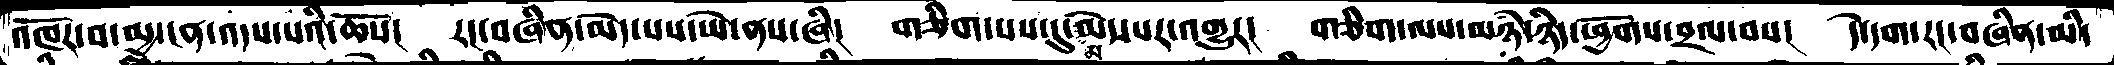འཁོར་བ་མྱ་ངན་འདས་པའི་ཆོས།  རང་བཞིན་མེད་པས་ཡེ་ནས་ཞི། གཅིག་པས་དུ་མ་མེད་པར་འགྱུར།  གཅིག་ལས་མཉཾ་ཉིད་ཕྱོགས་བྲལ་བས།  དེ་དག་རང་བཞིན་མི་
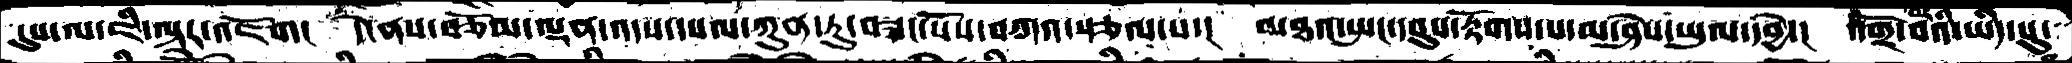དུས་ལ་ཇི་ལྟར་འཇོག།  དེ་ནས་བཅོམ་ལྡན་འདས་དཔལ་ཀུན་ཏུ་བཟང་པོས་བཀའ་སྩལ་པ་།  མཐའ་སྤང་དབུས་རྟོགས་པ་མ་ཤེས་ཡུལ་དབྱེ་།  འགྲོ་བའི་ཡིད་སུ་
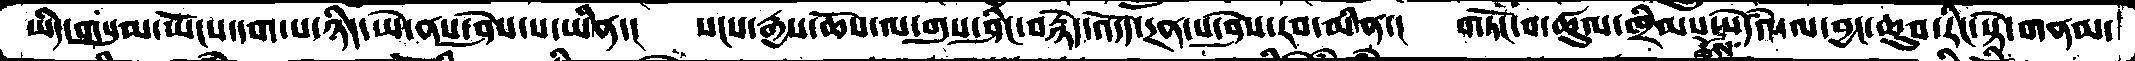ཡིད་གསུམ་ཡོངས་དག་པ་ཉིད་ཡེ་ནས་ཤེས་པ་ཡིན་།  སངས་རྒྱས་ཆོས་ལ་གུས་ཤིང་བརྙེད་འདོད་དྲན་པ་ཤེས་རབ་མིན་།  གཏོང་བ་ཚུལ་ཁྲིམས་སེདཾའ་ཆོས་ལ་བྱང་ཆུབ་རིང་སྟེ་གནམ་
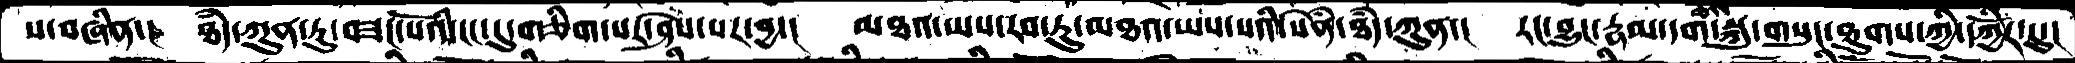ས་བཞིན་།  ཐཾད་ཀུན་ཏུ་བཟང་པོའི་ངང་དུ་གཅིག་པར་ཤེས་པར་བྱ་།  མཐའ་ཡས་རབ་ཏུ་མཐའ་ཡས་པའི་སེཾན་ཐཾད་ཀུན་།  རང་བྱུང་རྣམ་དག་སྐུ་གསུང་ཐུགས་ཀྱི་དཀྱིོར་དུ་།
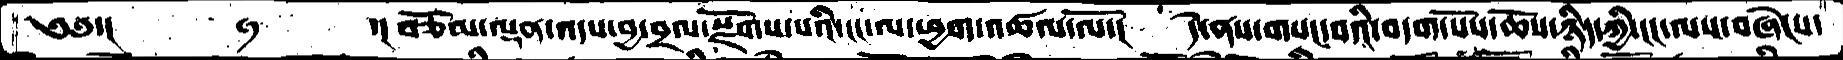༄༅་།    ཧ  ་།བཅོམ་ལྡན་འདས་བྱ་བྲལ་སྫོགས་པའི་ངང་ལ་ཕྱག་འཚལ་ལོ་།  དེ་ནས་གསང་བའི་བདག་པོས་ཆོས་ཉིད་ཀྱི་ངང་ལས་བཞེངས་
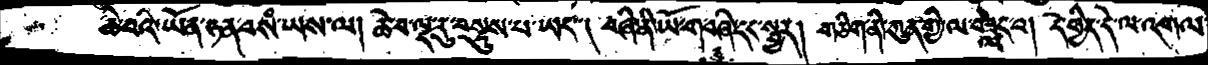ཆེ་བའི་ཡོན་ཏན་བསཾ་ཡས་ལ། ཆེ་བ་ལྔ་རུ་བསྡུས་པ་ཡང་། བཞི་ནི་ཡོ་ག་བཞི་དང་སྦྱར། གཅིག་ནི་ཀུན་གྱི་ལ་བཟླེང་བ། དེ་ཕྱིར་དེ་ལ་འགལ་
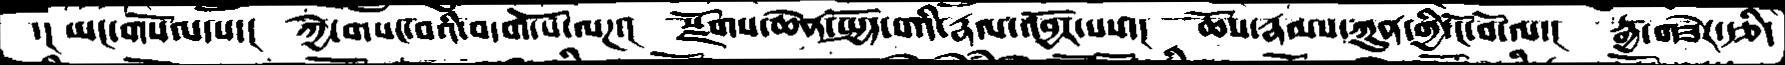་། ཡང་གསོལ་པ་། ཀྱེ་གསང་བའི་བདག་པོ་ལཌ་། སྫོགས་ཆེན་སྤྱོད་པའི་རྣལ་འབྱོར་པས་། ཆོས་རྣམས་ཀུན་གྱི་ངོ་བོ་ལ་། རྒྱ་གཟེར་དཅི་
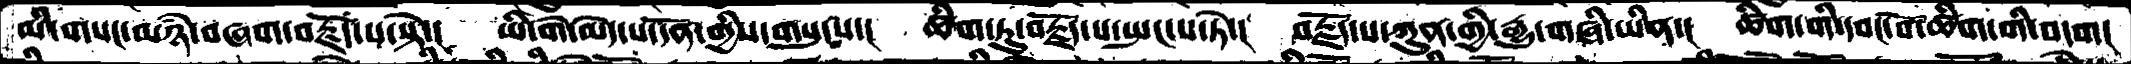མི་གསང་མཉཾ་བཞག་བརྗོད་པ་སྟེ་།  ཡི་གེ་མེད་པ་དོན་གྱིས་གསུངས་།  ཚིག་ཏུ་བརྗོད་པ་སྤང་པ་ཏེ་།  བརྗོད་པ་ཀུན་གྱི་རྒྱུ་གཞི་ཡིན་།  ཚིག་གི་དབང་པོ་ཚིག་གི་བདག།
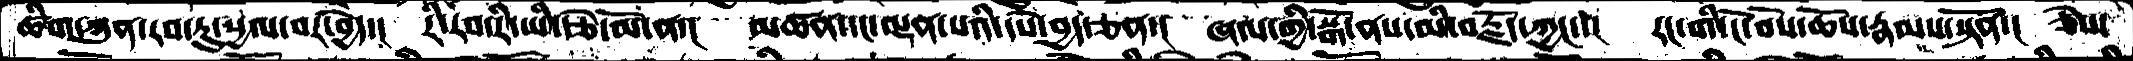ཚིག་ཀུན་རབ་ཏུ་སྱལ་བར་བྱེད་།  རི་རབ་རི་ཡི་རྩེ་མོ་ན་།  མཚན་དང་ལྡན་པའི་དཔེ་བྱད་ཅན་།  ཞལ་གྱི་སྒོ་ནས་མི་བརྗོད་ཀྱང་།  རང་གི་ངོ་བོས་ཆོས་རྣམས་སྟོན་།  ཅེས་
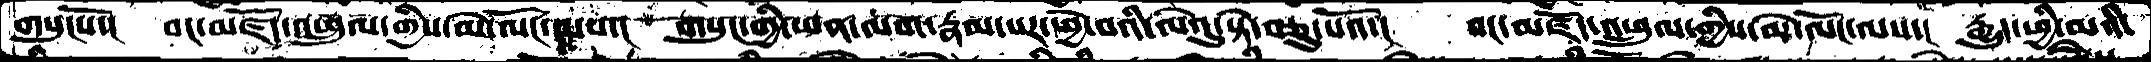གསུངསོ་།  བང་མཛོད་འཕྲུལ་གྱིས་མེ་ལོང་ལས་།  གསུང་གྱི་ཡན་ལག་རྣམ་པར་ཕྱེ་བའི་ལེའུ་སྟེ་བཅུ་པའོ་།  བང་མཛོད་འཕྲུལ་གྱིས་མེ་ལོང་ལས་།  རྒྱུད་ཕྱི་མའི་
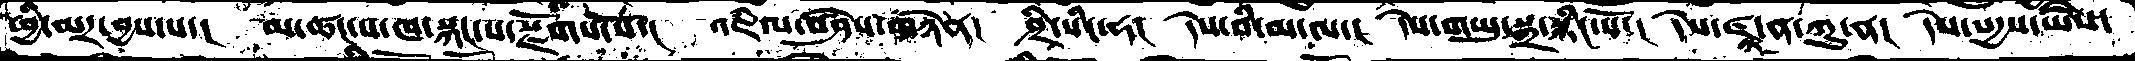ཕྱི་མར་བྱས་པ་།  མ་ཚང་པ་ཁ་སྐང་པ་སྫོགས་སོ་།  འཇཾལ་བཤེས་གཉེན།  ཤྲི་སིང་ཧ།  དེས་བི་མ་ལ་།  དེས་གཡུ་སྒྲ་སྙིང་པོ་།  དེས་ཛྙ་ན་ཀུ་ན།  དེས་སདྱས་ཡཻས་
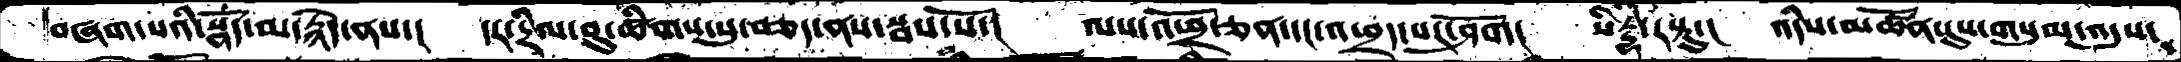བཞག་པའི་སྣོད་མ་རྙེད་ནས་།  དར་དྲིལ་བུ་ཚིགས་སུ་བཅད་ནས་སྦས་སོ་།  ལས་འཕྲོ་ཅན་དང་འཕྲད་པར་ཤོག།  སིདྡྷི་རསྟུ་།  འདིས་མཚོན་དུས་གསུམ་འདུས་
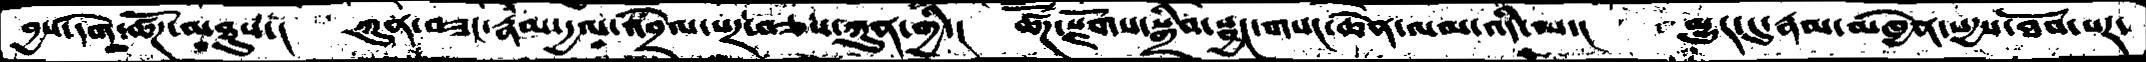བྱས་དགེ་ཚོཌ་མཐུས་།  ཀུན་བཟང་རྣམ་དྱལ་འབྲེལ་པར་བཅས་ཀུན་གྱི་།  ཚོཌ་སྫོགས་སྒྲིབ་སྦྱང་གསང་ཆེན་ལམ་འདི་ལ་།  མྱུར་དུ་རྣམ་མཁྱེན་སདྱས་ཐོབ་པར་
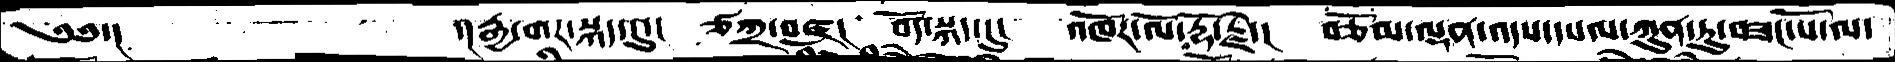༄༅་།    ་།རྒྱ་གར་སྐད་དུ་།  ཙཀྲ་བཛྲ།  བོད་སྐད་དུ་།  འཁོར་ལོ་རྡོ་རྗེ་།  བཅོམ་ལྡན་འདས་དཔལ་ཀུན་ཏུ་བཟང་པོ་ལ་
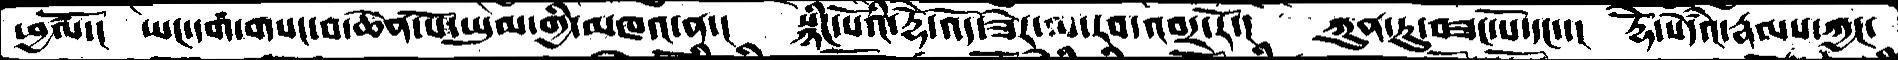ཕྱཚལོ་།  ཡང་དག་གསང་བ་ཆེན་པོ་ཡུམ་གྱི་མཁའ་ན་།  སྙིང་པོའི་རྡོེ་འོད་ཟེར་ལ་རབ་འབར་རོ་།  ཀུན་ཏུ་བཟང་པོ་དང་་།  རྡོེ་སེདཾའ་རྣམས་ཀྱང་
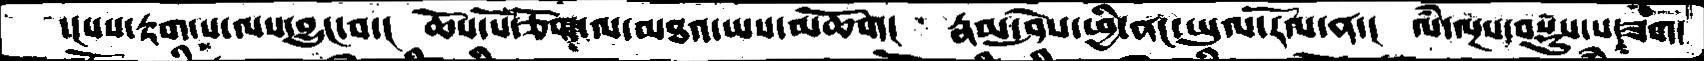་།པས་རྟག་པ་ལས་བྱུང་བ་།  ཆོས་སོ་ཅོག་ལ་མཐའ་ཡས་མཆོག།  རྣམ་ཤེས་ཕྱི་ནང་ཡུལ་རོལ་ན་།  ལཾ་ལྔས་བསྡུས་པ་ཟག་
